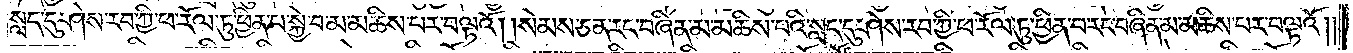སླད་དུ་ཤེས་རབ་ཀྱི་ཕ་རོལ་ཏུ་ཕྱིན་པ་སྐྱེ་བ་མ་མཆིས་པར་བལྟའོ། །སེམས་ཅན་རང་བཞིན་མ་མཆིས་པའི་སླད་དུ་ཤེས་རབ་ཀྱི་ཕ་རོལ་ཏུ་ཕྱིན་པ་རང་བཞིན་མ་མཆིས་པར་བལྟའོ། །
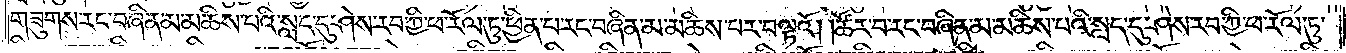གཟུགས་རང་བཞིན་མ་མཆིས་པའི་སླད་དུ་ཤེས་རབ་ཀྱི་ཕ་རོལ་ཏུ་ཕྱིན་པ་རང་བཞིན་མ་མཆིས་པར་བལྟའོ། །ཚོར་བ་རང་བཞིན་མ་མཆིས་པའི་སླད་དུ་ཤེས་རབ་ཀྱི་ཕ་རོལ་ཏུ་
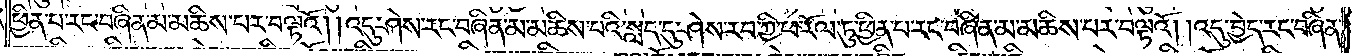ཕྱིན་པ་རང་བཞིན་མ་མཆིས་པར་བལྟའོ། །འདུ་ཤེས་རང་བཞིན་མ་མཆིས་པའི་སླད་དུ་ཤེས་རབ་ཀྱི་ཕ་རོལ་ཏུ་ཕྱིན་པ་རང་བཞིན་མ་མཆིས་པར་བལྟའོ། །འདུ་བྱེད་རང་བཞིན་
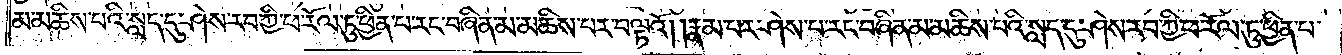མ་མཆིས་པའི་སླད་དུ་ཤེས་རབ་ཀྱི་ཕ་རོལ་ཏུ་ཕྱིན་པ་རང་བཞིན་མ་མཆིས་པར་བལྟའོ། །རྣམ་པར་ཤེས་པ་རང་བཞིན་མ་མཆིས་པའི་སླད་དུ་ཤེས་རབ་ཀྱི་ཕ་རོལ་ཏུ་ཕྱིན་པ་
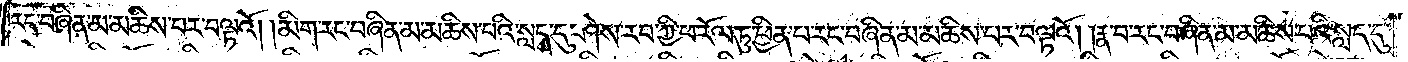རང་བཞིན་མ་མཆིས་པར་བལྟའོ། །མིག་རང་བཞིན་མ་མཆིས་པའི་སླད་དུ་ཤེས་རབ་ཀྱི་ཕ་རོལ་ཏུ་ཕྱིན་པ་རང་བཞིན་མ་མཆིས་པར་བལྟའོ། །རྣ་བ་རང་བཞིན་མ་མཆིས་པའི་སླད་དུ་
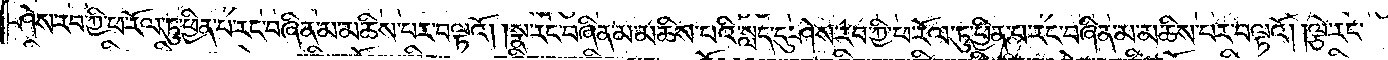ཤེས་རབ་ཀྱི་ཕ་རོལ་ཏུ་ཕྱིན་པ་རང་བཞིན་མ་མཆིས་པར་བལྟའོ། །སྣ་རང་བཞིན་མ་མཆིས་པའི་སླད་དུ་ཤེས་རབ་ཀྱི་ཕ་རོལ་ཏུ་ཕྱིན་པ་རང་བཞིན་མ་མཆིས་པར་བལྟའོ། །ལྕེ་རང་
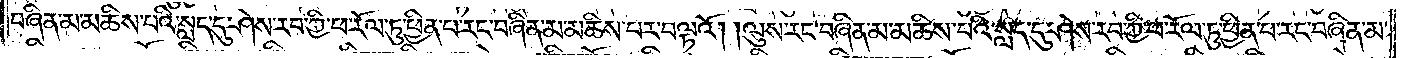བཞིན་མ་མཆིས་པའི་སླད་དུ་ཤེས་རབ་ཀྱི་ཕ་རོལ་ཏུ་ཕྱིན་པ་རང་བཞིན་མ་མཆིས་པར་བལྟའོ། །ལུས་རང་བཞིན་མ་མཆིས་པའི་སླད་དུ་ཤེས་རབ་ཀྱི་ཕ་རོལ་ཏུ་ཕྱིན་པ་རང་བཞིན་མ་
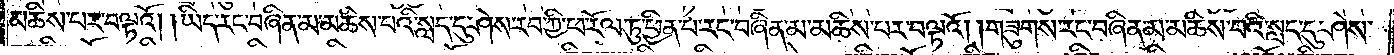མཆིས་པར་བལྟའོ། །ཡིད་རང་བཞིན་མ་མཆིས་པའི་སླད་དུ་ཤེས་རབ་ཀྱི་ཕ་རོལ་ཏུ་ཕྱིན་པ་རང་བཞིན་མ་མཆིས་པར་བལྟའོ། །གཟུགས་རང་བཞིན་མ་མཆིས་པའི་སླད་དུ་ཤེས་
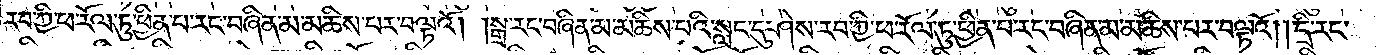རབ་ཀྱི་ཕ་རོལ་ཏུ་ཕྱིན་པ་རང་བཞིན་མ་མཆིས་པར་བལྟའོ། །སྒྲ་རང་བཞིན་མ་མཆིས་པའི་སླད་དུ་ཤེས་རབ་ཀྱི་ཕ་རོལ་ཏུ་ཕྱིན་པ་རང་བཞིན་མ་མཆིས་པར་བལྟའོ། །དྲི་རང་
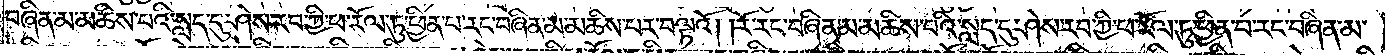བཞིན་མ་མཆིས་པའི་སླད་དུ་ཤེས་རབ་ཀྱི་ཕ་རོལ་ཏུ་ཕྱིན་པ་རང་བཞིན་མ་མཆིས་པར་བལྟའོ། །རོ་རང་བཞིན་མ་མཆིས་པའི་སླད་དུ་ཤེས་རབ་ཀྱི་ཕ་རོལ་ཏུ་ཕྱིན་པ་རང་བཞིན་མ་
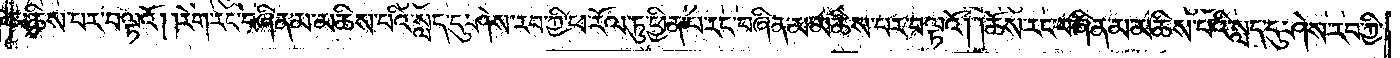མཆིས་པར་བལྟའོ། །རེག་རང་བཞིན་མ་མཆིས་པའི་སླད་དུ་ཤེས་རབ་ཀྱི་ཕ་རོལ་ཏུ་ཕྱིན་པ་རང་བཞིན་མ་མཆིས་པར་བལྟའོ། །ཆོས་རང་བཞིན་མ་མཆིས་པའི་སླད་དུ་ཤེས་རབ་ཀྱི་
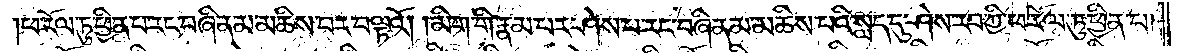ཕ་རོལ་ཏུ་ཕྱིན་པ་རང་བཞིན་མ་མཆིས་པར་བལྟའོ། །མིག་གི་རྣམ་པར་ཤེས་པ་རང་བཞིན་མ་མཆིས་པའི་སླད་དུ་ཤེས་རབ་ཀྱི་ཕ་རོལ་ཏུ་ཕྱིན་པ་
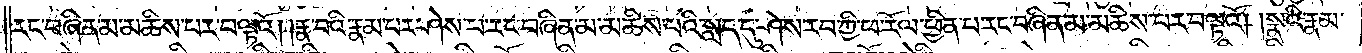རང་བཞིན་མ་མཆིས་པར་བལྟའོ། །རྣ་བའི་རྣམ་པར་ཤེས་པ་རང་བཞིན་མ་མཆིས་པའི་སླད་དུ་ཤེས་རབ་ཀྱི་ཕ་རོལ་ཏུ་ཕྱིན་པ་རང་བཞིན་མ་མཆིས་པར་བལྟའོ། །སྣའི་རྣམ་
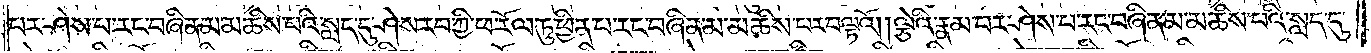པར་ཤེས་པ་རང་བཞིན་མ་མཆིས་པའི་སླད་དུ་ཤེས་རབ་ཀྱི་ཕ་རོལ་ཏུ་ཕྱིན་པ་རང་བཞིན་མ་མཆིས་པར་བལྟའོ། །ལྕེའི་རྣམ་པར་ཤེས་པ་རང་བཞིན་མ་མཆིས་པའི་སླད་དུ་
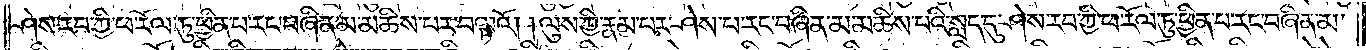ཤེས་རབ་ཀྱི་ཕ་རོལ་ཏུ་ཕྱིན་པ་རང་བཞིན་མ་མཆིས་པར་བལྟའོ། །ལུས་ཀྱི་རྣམ་པར་ཤེས་པ་རང་བཞིན་མ་མཆིས་པའི་སླད་དུ་ཤེས་རབ་ཀྱི་ཕ་རོལ་ཏུ་ཕྱིན་པ་རང་བཞིན་མ་
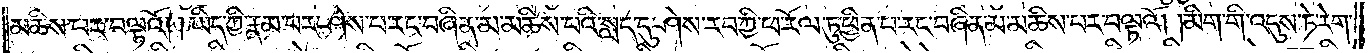མཆིས་པར་བལྟའོ། །ཡིད་ཀྱི་རྣམ་པར་ཤེས་པ་རང་བཞིན་མ་མཆིས་པའི་སླད་དུ་ཤེས་རབ་ཀྱི་ཕ་རོལ་ཏུ་ཕྱིན་པ་རང་བཞིན་མ་མཆིས་པར་བལྟའོ། །མིག་གི་འདུས་ཏེ་རེག་
